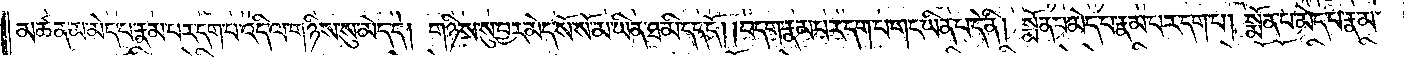མཚན་མ་མེད་པ་རྣམ་པར་དག་པ་འདི་ལ་གཉིས་སུ་མེད་དེ། གཉིས་སུ་བྱར་མེད་སོ་སོ་མ་ཡིན་ཐ་མི་དད་དོ། །བདག་རྣམ་པར་དག་པ་གང་ཡིན་པ་དེ་ནི། སྨོན་པ་མེད་པ་རྣམ་པར་དག་པ། སྨོན་པ་མེད་པ་རྣམ་
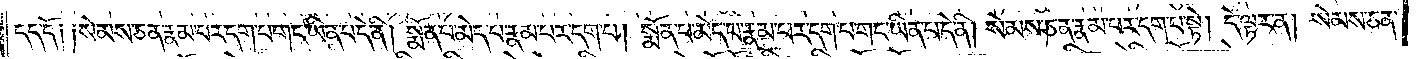དད་དོ། །སེམས་ཅན་རྣམ་པར་དག་པ་གང་ཡིན་པ་དེ་ནི། སྨོན་པ་མེད་པ་རྣམ་པར་དག་པ། སྨོན་པ་མེད་པ་རྣམ་པར་དག་པ་གང་ཡིན་པ་དེ་ནི། སེམས་ཅན་རྣམ་པར་དག་པ་སྟེ། དེ་ལྟར་ན། སེམས་ཅན་
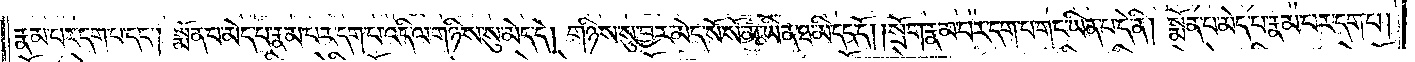རྣམ་པར་དག་པ་དང༌། སྨོན་པ་མེད་པ་རྣམ་པར་དག་པ་འདི་ལ་གཉིས་སུ་མེད་དེ། གཉིས་སུ་བྱར་མེད་སོ་སོ་མ་ཡིན་ཐ་མི་དད་དོ། །སྲོག་རྣམ་པར་དག་པ་གང་ཡིན་པ་དེ་ནི། སྨོན་པ་མེད་པ་རྣམ་པར་དག་པ།
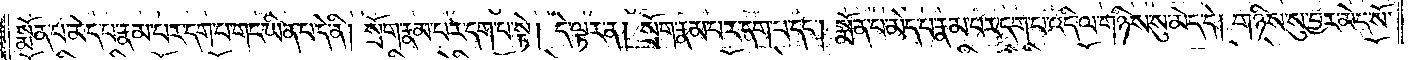སྨོན་པ་མེད་པ་རྣམ་པར་དག་པ་གང་ཡིན་པ་དེ་ནི། སྲོག་རྣམ་པར་དག་པ་སྟེ། དེ་ལྟར་ན། སྲོག་རྣམ་པར་དག་པ་དང༌། སྨོན་པ་མེད་པ་རྣམ་པར་དག་པ་འདི་ལ་གཉིས་སུ་མེད་དེ། གཉིས་སུ་བྱར་མེད་སོ་
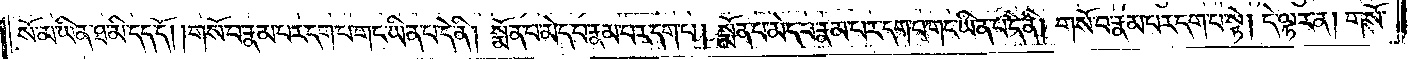སོ་མ་ཡིན་ཐ་མི་དད་དོ། །གསོ་བ་རྣམ་པར་དག་པ་གང་ཡིན་པ་དེ་ནི། སྨོན་པ་མེད་པ་རྣམ་པར་དག་པ། སྨོན་པ་མེད་པ་རྣམ་པར་དག་པ་གང་ཡིན་པ་དེ་ནི། གསོ་བ་རྣམ་པར་དག་པ་སྟེ། དེ་ལྟར་ན། གསོ་
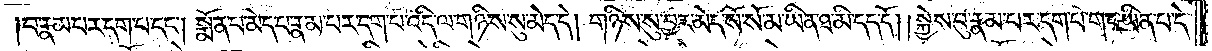བ་རྣམ་པར་དག་པ་དང༌། སྨོན་པ་མེད་པ་རྣམ་པར་དག་པ་འདི་ལ་གཉིས་སུ་མེད་དེ། གཉིས་སུ་བྱར་མེད་སོ་སོ་མ་ཡིན་ཐ་མི་དད་དོ། །སྐྱེས་བུ་རྣམ་པར་དག་པ་གང་ཡིན་པ་དེ།
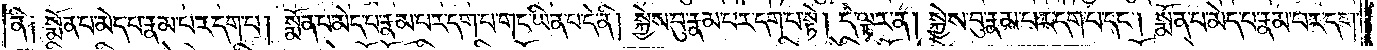ནི། སྨོན་པ་མེད་པ་རྣམ་པར་དག་པ། སྨོན་པ་མེད་པ་རྣམ་པར་དག་པ་གང་ཡིན་པ་དེ་ནི། སྐྱེས་བུ་རྣམ་པར་དག་པ་སྟེ། དེ་ལྟར་ན། སྐྱེས་བུ་རྣམ་པར་དག་པ་དང༌། སྨོན་པ་མེད་པ་རྣམ་པར་དག་
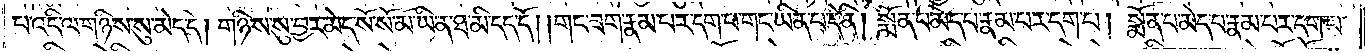པ་འདི་ལ་གཉིས་སུ་མེད་དེ། གཉིས་སུ་བྱར་མེད་སོ་སོ་མ་ཡིན་ཐ་མི་དད་དོ། །གང་ཟག་རྣམ་པར་དག་པ་གང་ཡིན་པ་དེ་ནི། སྨོན་པ་མེད་པ་རྣམ་པར་དག་པ། སྨོན་པ་མེད་པ་རྣམ་པར་དག་པ་
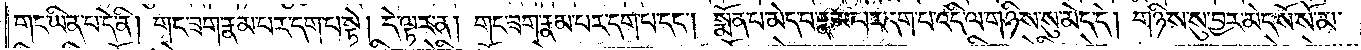གང་ཡིན་པ་དེ་ནི། གང་ཟག་རྣམ་པར་དག་པ་སྟེ། དེ་ལྟར་ན། གང་ཟག་རྣམ་པར་དག་པ་དང༌། སྨོན་པ་མེད་པ་རྣམ་པར་དག་པ་འདི་ལ་གཉིས་སུ་མེད་དེ། གཉིས་སུ་བྱར་མེད་སོ་སོ་མ་
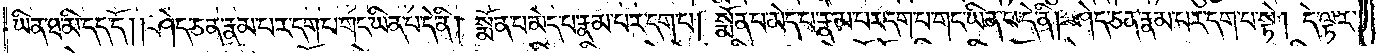ཡིན་ཐ་མི་དད་དོ། །ཤེད་ཅན་རྣམ་པར་དག་པ་གང་ཡིན་པ་དེ་ནི། སྨོན་པ་མེད་པ་རྣམ་པར་དག་པ། སྨོན་པ་མེད་པ་རྣམ་པར་དག་པ་གང་ཡིན་པ་དེ་ནི། ཤེད་ཅན་རྣམ་པར་དག་པ་སྟེ། དེ་ལྟར་
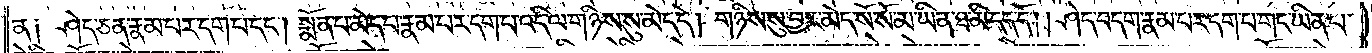ན། ཤེད་ཅན་རྣམ་པར་དག་པ་དང༌། སྨོན་པ་མེད་པ་རྣམ་པར་དག་པ་འདི་ལ་གཉིས་སུ་མེད་དེ། གཉིས་སུ་བྱར་མེད་སོ་སོ་མ་ཡིན་ཐ་མི་དད་དོ། །ཤེད་བདག་རྣམ་པར་དག་པ་གང་ཡིན་པ་
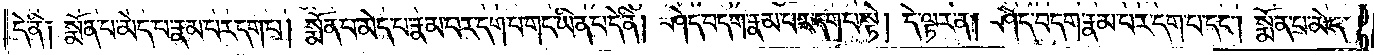དེ་ནི། སྨོན་པ་མེད་པ་རྣམ་པར་དག་པ། སྨོན་པ་མེད་པ་རྣམ་པར་དག་པ་གང་ཡིན་པ་དེ་ནི། ཤེད་བདག་རྣམ་པར་དག་པ་སྟེ། དེ་ལྟར་ན། ཤེད་བདག་རྣམ་པར་དག་པ་དང༌། སྨོན་པ་མེད་
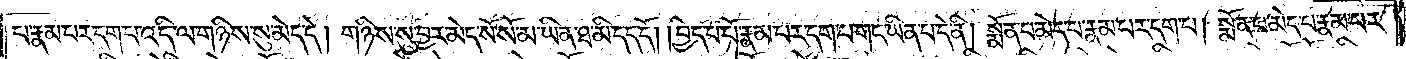པ་རྣམ་པར་དག་པ་འདི་ལ་གཉིས་སུ་མེད་དེ། གཉིས་སུ་བྱར་མེད་སོ་སོ་མ་ཡིན་ཐ་མི་དད་དོ། །བྱེད་པ་པོ་རྣམ་པར་དག་པ་གང་ཡིན་པ་དེ་ནི། སྨོན་པ་མེད་པ་རྣམ་པར་དག་པ། སྨོན་པ་མེད་པ་རྣམ་པར་
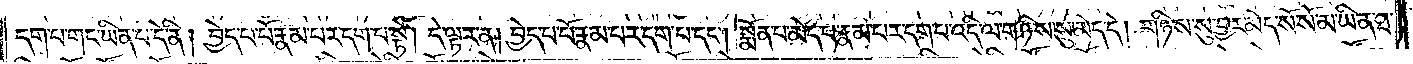དག་པ་གང་ཡིན་པ་དེ་ནི། བྱེད་པ་པོ་རྣམ་པར་དག་པ་སྟེ། དེ་ལྟར་ན། བྱེད་པ་པོ་རྣམ་པར་དག་པ་དང༌། སྨོན་པ་མེད་པ་རྣམ་པར་དག་པ་འདི་ལ་གཉིས་སུ་མེད་དེ། གཉིས་སུ་བྱར་མེད་སོ་སོ་མ་ཡིན་ཐ་
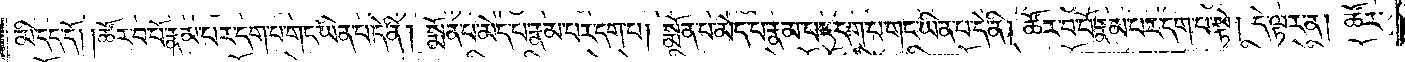མི་དད་དོ། །ཚོར་བ་པོ་རྣམ་པར་དག་པ་གང་ཡིན་པ་དེ་ནི། སྨོན་པ་མེད་པ་རྣམ་པར་དག་པ། སྨོན་པ་མེད་པ་རྣམ་པར་དག་པ་གང་ཡིན་པ་དེ་ནི། ཚོར་བ་པོ་རྣམ་པར་དག་པ་སྟེ། དེ་ལྟར་ན། ཚོར་
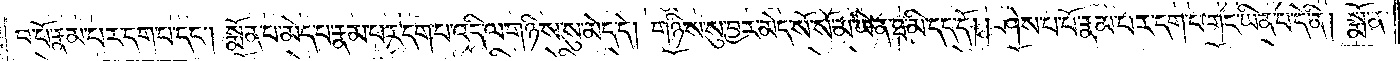བ་པོ་རྣམ་པར་དག་པ་དང༌། སྨོན་པ་མེད་པ་རྣམ་པར་དག་པ་འདི་ལ་གཉིས་སུ་མེད་དེ། གཉིས་སུ་བྱར་མེད་སོ་སོ་མ་ཡིན་ཐ་མི་དད་དོ། །ཤེས་པ་པོ་རྣམ་པར་དག་པ་གང་ཡིན་པ་དེ་ནི། སྨོན་
